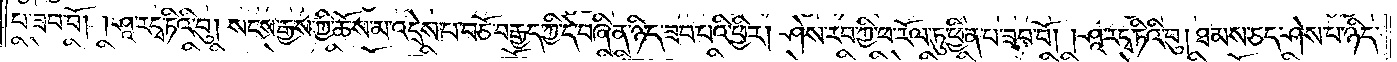པ་ཟབ་བོ། །ཤཱ་རདྭ་ཏིའི་བུ། སངས་རྒྱས་ཀྱི་ཆོས་མ་འདྲེས་པ་བཅོ་བརྒྱད་ཀྱི་དེ་བཞིན་ཉིད་ཟབ་པའི་ཕྱིར། ཤེས་རབ་ཀྱི་ཕ་རོལ་ཏུ་ཕྱིན་པ་ཟབ་བོ། །ཤཱ་རདྭ་ཏིའི་བུ། ཐམས་ཅད་ཤེས་པ་ཉིད་
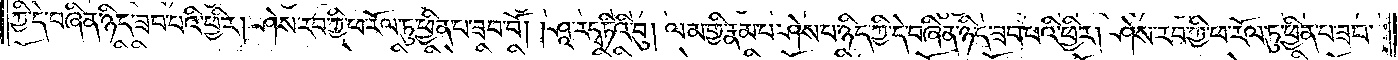ཀྱི་དེ་བཞིན་ཉིད་ཟབ་པའི་ཕྱིར། ཤེས་རབ་ཀྱི་ཕ་རོལ་ཏུ་ཕྱིན་པ་ཟབ་བོ། །ཤཱ་ར་དྭ་ཏིའི་བུ། ལམ་གྱི་རྣམ་པ་ཤེས་པ་ཉིད་ཀྱི་དེ་བཞིན་ཉིད་ཟབ་པའི་ཕྱིར། ཤེས་རབ་ཀྱི་ཕ་རོལ་ཏུ་ཕྱིན་པ་ཟབ་
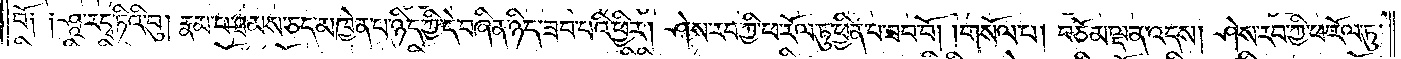བོ༑ ༑ཤཱ་ར་དྭ་ཏིའི་བུ། རྣམ་པ་ཐམས་ཅད་མཁྱེན་པ་ཉིད་ཀྱི་དེ་བཞིན་ཉིད་ཟབ་པའི་ཕྱིར། ཤེས་རབ་ཀྱི་ཕ་རོལ་ཏུ་ཕྱིན་པ་ཟབ་བོ། །གསོལ་པ། བཅོམ་ལྡན་འདས། ཤེས་རབ་ཀྱི་ཕ་རོལ་ཏུ་
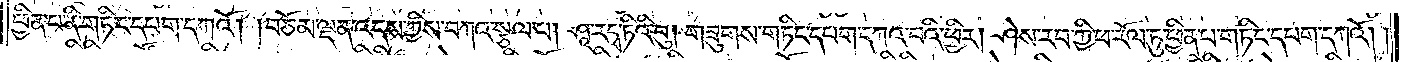ཕྱིན་པ་ནི་གཏིང་དཔག་དཀའོ། །བཅོམ་ལྡན་འདས་ཀྱིས་བཀའ་སྩལ་པ། ཤཱ་ར་དྭ་ཏིའི་བུ། གཟུགས་གཏིང་དཔག་དཀའ་བའི་ཕྱིར། ཤེས་རབ་ཀྱི་ཕ་རོལ་ཏུ་ཕྱིན་པ་གཏིང་དཔག་དཀའོ། །
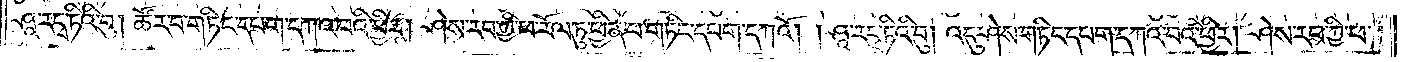ཤཱ་ར་དྭ་ཏིའི་བུ། ཚོར་བ་གཏིང་དཔག་དཀའ་བའི་ཕྱིར། ཤེས་རབ་ཀྱི་ཕ་རོལ་ཏུ་ཕྱིན་པ་གཏིང་དཔག་དཀའོ། །ཤཱ་ར་དྭ་ཏིའི་བུ། འདུ་ཤེས་གཏིང་དཔག་དཀའ་བའི་ཕྱིར། ཤེས་རབ་ཀྱི་ཕ་
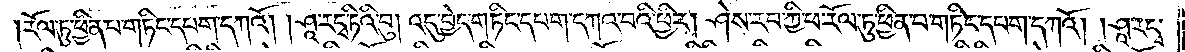རོལ་ཏུ་ཕྱིན་པ་གཏིང་དཔག་དཀའོ། །ཤཱ་ར་དྭ་ཏིའི་བུ། འདུ་བྱེད་གཏིང་དཔག་དཀའ་བའི་ཕྱིར། ཤེས་རབ་ཀྱི་ཕ་རོལ་ཏུ་ཕྱིན་པ་གཏིང་དཔག་དཀའོ། །ཤཱ་ར་དྭ་
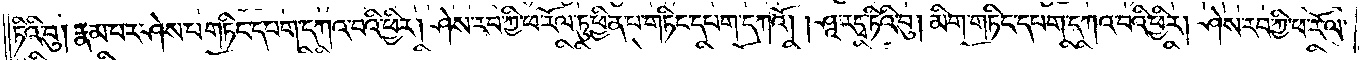ཏིའི་བུ། རྣམ་པར་ཤེས་པ་གཏིང་དཔག་དཀའ་བའི་ཕྱིར། ཤེས་རབ་ཀྱི་ཕ་རོལ་ཏུ་ཕྱིན་པ་གཏིང་དཔག་དཀའོ། །ཤཱ་ར་དྭ་ཏིའི་བུ། མིག་གཏིང་དཔག་དཀའ་བའི་ཕྱིར། ཤེས་རབ་ཀྱི་ཕ་རོལ་
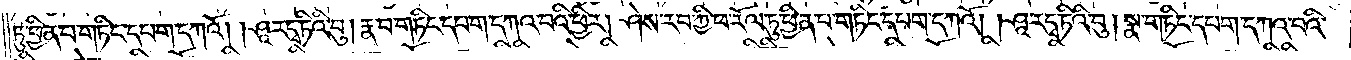ཏུ་ཕྱིན་པ་གཏིང་དཔག་དཀའོ། །ཤཱ་ར་དྭ་ཏིའི་བུ། རྣ་བ་གཏིང་དཔག་དཀའ་བའི་ཕྱིར། ཤེས་རབ་ཀྱི་ཕ་རོལ་ཏུ་ཕྱིན་པ་གཏིང་དཔག་དཀའོ། །ཤཱ་ར་དྭ་ཏིའི་བུ། སྣ་གཏིང་དཔག་དཀའ་བའི་
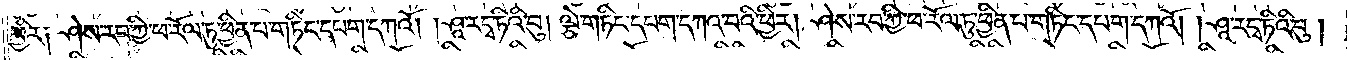ཕྱིར༑ ཤེས་རབ་ཀྱི་ཕ་རོལ་ཏུ་ཕྱིན་པ་གཏིང་དཔག་དཀའོ། །ཤཱ་ར་དྭ་ཏིའི་བུ། ལྕེ་གཏིང་དཔག་དཀའ་བའི་ཕྱིར། ཤེས་རབ་ཀྱི་ཕ་རོལ་ཏུ་ཕྱིན་པ་གཏིང་དཔག་དཀའོ། །ཤཱ་ར་དྭ་ཏིའི་བུ།
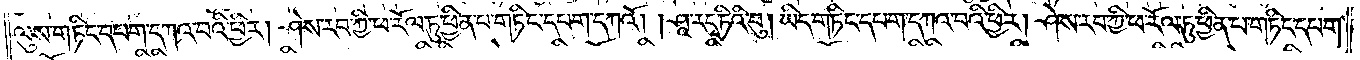ལུས་གཏིང་དཔག་དཀའ་བའི་ཕྱིར། ཤེས་རབ་ཀྱི་ཕ་རོལ་ཏུ་ཕྱིན་པ་གཏིང་དཔག་དཀའོ། །ཤཱ་ར་དྭ་ཏིའི་བུ། ཡིད་གཏིང་དཔག་དཀའ་བའི་ཕྱིར། ཤེས་རབ་ཀྱི་ཕ་རོལ་ཏུ་ཕྱིན་པ་གཏིང་དཔག་
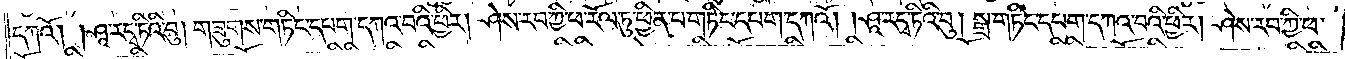དཀའོ། །ཤཱ་ར་དྭ་ཏིའི་བུ། གཟུགས་གཏིང་དཔག་དཀའ་བའི་ཕྱིར། ཤེས་རབ་ཀྱི་ཕ་རོལ་ཏུ་ཕྱིན་པ་གཏིང་དཔག་དཀའོ། །ཤཱ་ར་དྭ་ཏིའི་བུ། སྒྲ་གཏིང་དཔག་དཀའ་བའི་ཕྱིར། ཤེས་རབ་ཀྱི་ཕ་
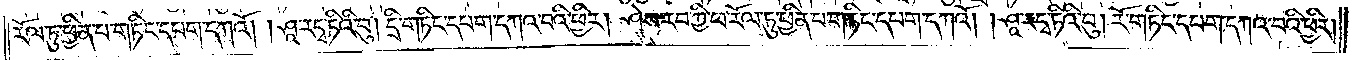རོལ་ཏུ་ཕྱིན་པ་གཏིང་དཔག་དཀའོ། །ཤཱ་རདྭ་ཏིའི་བུ། དྲི་གཏིང་དཔག་དཀའ་བའི་ཕྱིར། ཤེས་རབ་ཀྱི་ཕ་རོལ་ཏུ་ཕྱིན་པ་གཏིང་དཔག་དཀའོ། །ཤཱ་རདྭ་ཏིའི་བུ། རོ་གཏིང་དཔག་དཀའ་བའི་ཕྱིར།
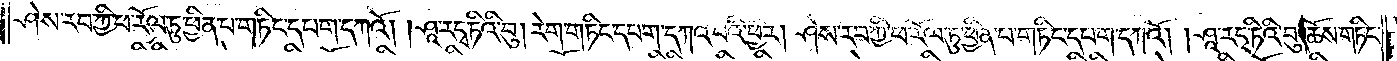ཤེས་རབ་ཀྱི་ཕ་རོལ་ཏུ་ཕྱིན་པ་གཏིང་དཔག་དཀའོ། །ཤཱ་རདྭ་ཏིའི་བུ། རེག་གཏིང་དཔག་དཀའ་བའི་ཕྱིར། ཤེས་རབ་ཀྱི་ཕ་རོལ་ཏུ་ཕྱིན་པ་གཏིང་དཔག་དཀའོ། །ཤཱ་རདྭ་ཏིའི་བུ། ཆོས་གཏིང་
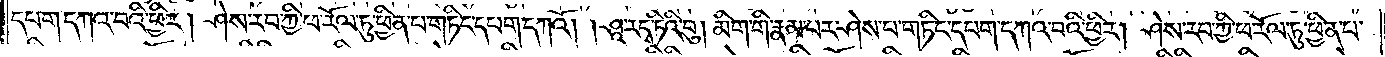དཔག་དཀའ་བའི་ཕྱིར། ཤེས་རབ་ཀྱི་ཕ་རོལ་ཏུ་ཕྱིན་པ་གཏིང་དཔག་དཀའོ། །ཤཱ་རདྭ་ཏིའི་བུ། མིག་གི་རྣམ་པར་ཤེས་པ་གཏིང་དཔག་དཀའ་བའི་ཕྱིར། ཤེས་རབ་ཀྱི་ཕ་རོལ་ཏུ་ཕྱིན་པ་
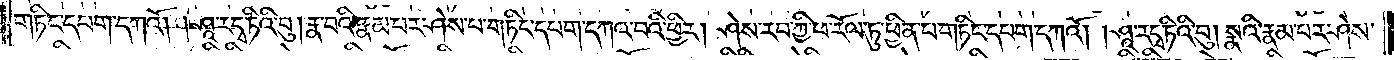གཏིང་དཔག་དཀའོ། །ཤཱ་རདྭ་ཏིའི་བུ། རྣ་བའི་རྣམ་པར་ཤེས་པ་གཏིང་དཔག་དཀའ་བའི་ཕྱིར། ཤེས་རབ་ཀྱི་ཕ་རོལ་ཏུ་ཕྱིན་པ་གཏིང་དཔག་དཀའོ། །ཤཱ་རདྭ་ཏིའི་བུ། སྣའི་རྣམ་པར་ཤེས་
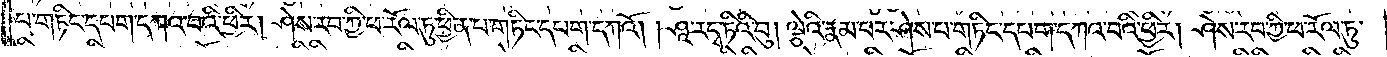པ་གཏིང་དཔག་དཀའ་བའི་ཕྱིར། ཤེས་རབ་ཀྱི་ཕ་རོལ་ཏུ་ཕྱིན་པ་གཏིང་དཔག་དཀའོ། །ཤཱ་རདྭ་ཏིའི་བུ། ལྕེའི་རྣམ་པར་ཤེས་པ་གཏིང་དཔག་དཀའ་བའི་ཕྱིར། ཤེས་རབ་ཀྱི་ཕ་རོལ་ཏུ་
